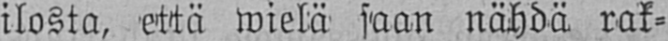ilosta, että wielä saan nähdä rak-
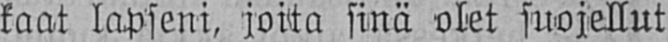kaat lapseni, joita sinä olet suojellut
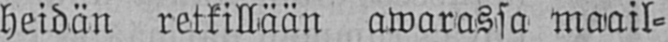heidän retkillään awarassa maail-
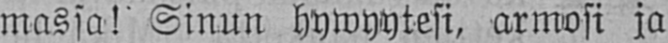massa! Sinun hywyytesi, armosi ja
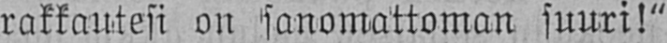rakkautesi on sanomattoman suuri!"
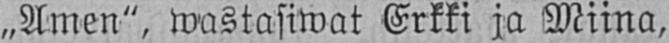„Amen", wastasiwat Erkki ja Miina,
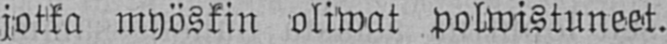jotka myöskin oliwat polwistuneet.
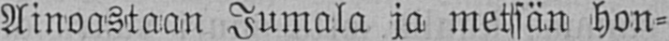Ainoastaan Jumala ja metsän hon-
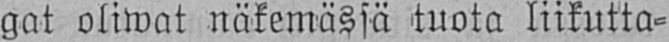gat oliwat näkemässä tuota liikutta-
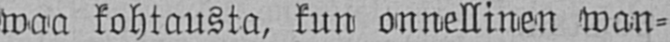waa kohtausta, kun onnellinen wan-
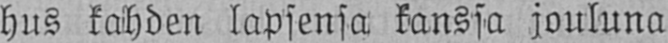hus kahden lapsensa kanssa jouluna
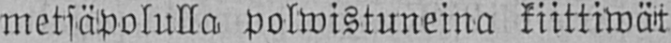metsäpolulla polwistuneina kiittiwät
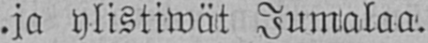ja ylistiwät Jumalaa.
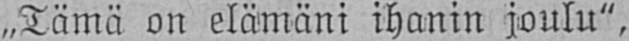„Tämä on elämäni ihanin joulu",
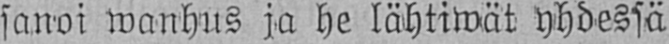sanoi wanhus ja he lähtiwät yhdessä
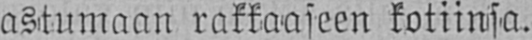astumaan rakkaaseen kotiinsa.
